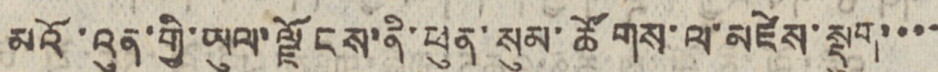མའོ་འུན་གྱི་ཡུལ་ལྗོངས་ནི་ཕུན་སུམ་ཚོགས་ལ་མཛེས་སྡུག་་་་
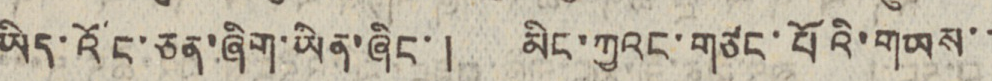ཡིད་འོང་ཅན་ཞིག་ཡིན་ཞིང་། མིང་ཀྱའང་གཙང་པོའི་གཡས་་
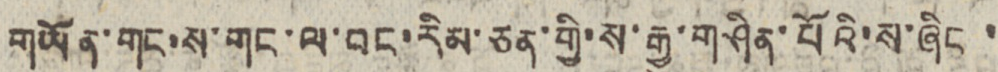གཡོན་གང་ས་གང་ལ་བང་རིམ་ཅན་གྱི་ས་རྒྱུ་གཤིན་པོའི་ས་ཞིང་་
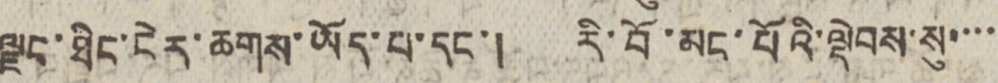ལྗང་ཐིང་ངེར་ཆགས་ཡོད་པ་དང་། རི་བོ་མང་པོའི་ལྡེབས་སུ་་་་
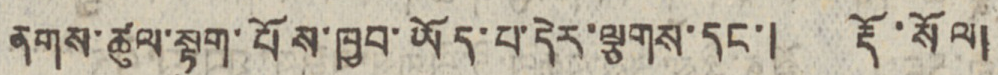ནགས་ཚུལ་སྟུག་པོས་ཁྱབ་ཡོད་པ་དེར་ལྕགས་དང་། རྡོ་སོལ།
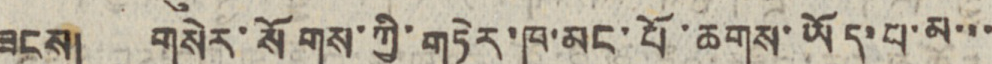ཟངས། གསེར་སོགས་ཀྱི་གཏེར་ཁ་མང་པོ་ཆགས་ཡོད་པ་མ་་་
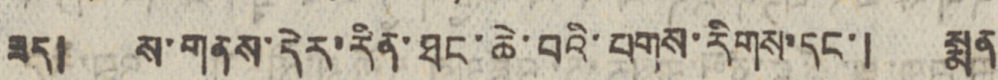ཟད། ས་གནས་དེར་རིན་ཐང་ཆེ་བའི་པགས་རིགས་དང་། སྨན་
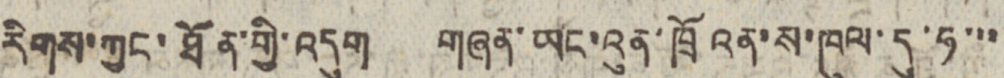རིགས་ཀྱང་ཐོན་གྱི་འདུག གཞན་ཡང་འུན་ཁྲོའན་ས་ཁུལ་དུ་ཧ་་་
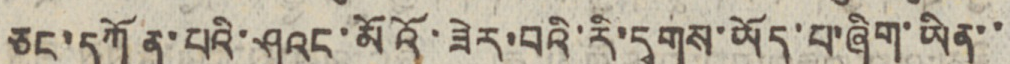ཅང་དཀོན་པའི་ཤུའང་མོའོ་ཟེར་བའི་རི་དྭགས་ཡོད་པ་ཞིག་ཡིན་་
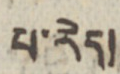པ་རེད།
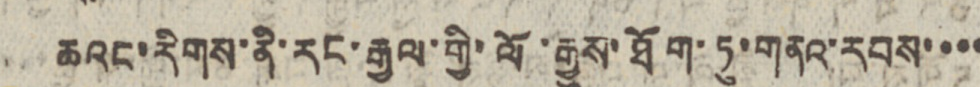ཆའང་རིགས་ནི་རང་རྒྱལ་གྱི་ལོ་རྒྱུས་ཐོག་ཏུ་གནའ་རབས་་་་
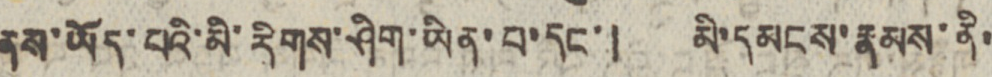ནས་ཡོད་པའི་མི་རིགས་ཤིག་ཡིན་པ་དང་། མི་དམངས་རྣམས་ནི་
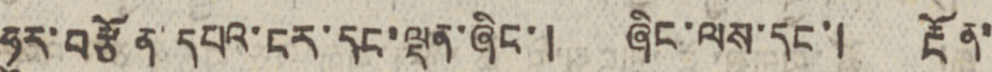ཧུར་བརྩོན་དཔའ་ངར་དང་ལྡན་ཞིང་། ཞིང་ལས་དང་། རྔོན་
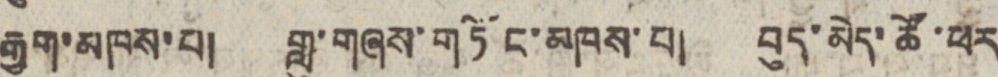རྒྱག་མཁས་པ། གླུ་གཞས་གཏོང་མཁས་པ། བུད་མེད་ཚོ་ཕར
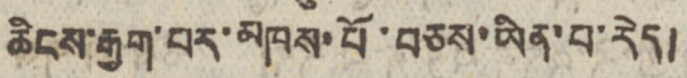ཆིངས་རྒྱག་པར་མཁས་པོ་བཅས་ཡིན་པ་རེད།
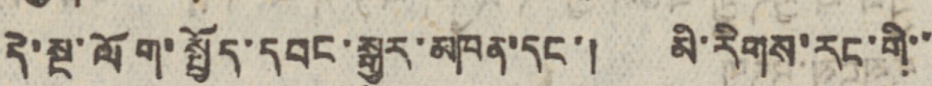དེ་སྔ་ལོག་སྤྱོད་དབང་སྒྱུར་མཁན་དང་། མི་རིགས་རང་གི་་
